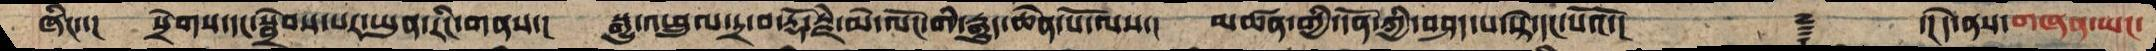ཞིང་་།   སྲེགས་དང་སྦྲེབས་པར་ཡུན་རིང་གནས་།  སྒྱུ་འཕྲུལ་དྲ་བ་རྡོ་རྗེ་མེ་ལོང་གི་རྒྱུད་ཆེན་པོ་ལས་།   མཚན་གྱི་དོན་ཀྱི་བཤད་པ་སྟེ་དང་པོའོ་།       ࿑    ་།དེ་ནས་གཞན་ཡང་
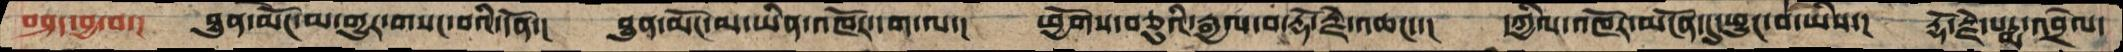བཤད་བྱ་བ་།  ཐུན་མོང་མ་གྱུར་གསང་བའི་དོན་།  ཐུན་མོང་མ་ཡིན་འཁོར་དག་ལ་།   ཕྱོགས་བཅུའི་རྒྱལ་བ་རྡོ་རྗེ་འཆང་་།   དཀྱིལ་འཁོར་མངོན་དུ་ཕྱུང་བ་ཡིས་།  རྡོ་རྗེ་པདྨ་འབྲེལ་
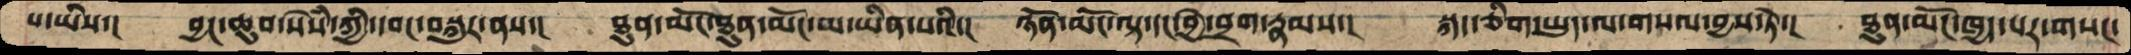པ་ཡིས་།  བྱང་ཆུབ་སེསཾ་ཀྱི་དབང་བསྐུར་ནས་།  ཐུན་མོང་ཐུན་མོང་མ་ཡིན་པའི་།  ཉོན་མོང་ལྟ་དང་བྱེ་བྲག་རྣམས་།   སྐད་ཅིག་ཡུད་ལ་གསལ་བྱས་ཏེ་།   ཐུན་མོང་ཁྱད་པར་གསང་
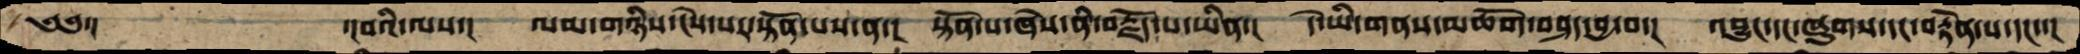༄༅་།      ་བའི་ལས་།  ལམ་གཉིས་ངེས་པར་སྟོན་པས་ན་།  སྟོན་པ་ཞེས་ནི་བརྗོད་པ་ཡིན་།  དེ་ཡི་གནས་མཆོག་བཤད་བྱ་བ་།  འབྱུང་དང་ཞུགས་དང་བརྟེན་པ་དང་་།
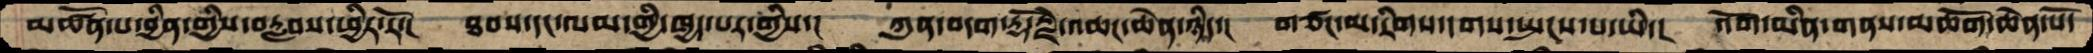མཚོན་པ་བྱིན་གྱིས་བརླབས་ཕྱིར་རོ་།  ཐབས་དང་ལམ་གྱི་ཁྱད་པར་གྱིས་།  ཀུན་བདག་རྡོ་རྗེ་འཆང་ཆེན་ཉིད་།  གཙང་མ་རིགས་དགས་སྤངས་པ་ཡི་།  འོག་མིན་གནས་མཆོག་ཆེན་པོ་
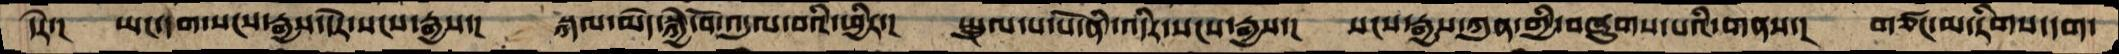དེར་།  ཡང་དག་སངས་རྒྱས་དེར་སངས་རྒྱས་།  སྐལ་མེད་སྐྱེ་བོ་འདུལ་བའི་ཕྱིར་།  སྤྲུལ་པ་པོ་ནི་འདིར་སངས་རྒྱས་།  སངས་རྒྱས་ཀུན་གྱི་བཞུགས་པའི་གནས་།  གཙང་མ་རིགས་དག་
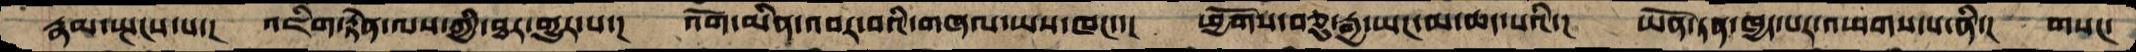རྣམ་སྤངས་པ་།  འཇིག་རྟེན་ལས་ཀྱི་ཐར་གྱུར་པ་།  འོག་མིན་འབར་བའི་གཞལ་ཡས་ཁང་་།  ཕྱོགས་བཅུ་རྒྱ་ཡང་མ་ཆད་པའི་།  ཡོན་ཏན་ཁྱད་པར་འཕགས་པ་ནི་།  གསང་
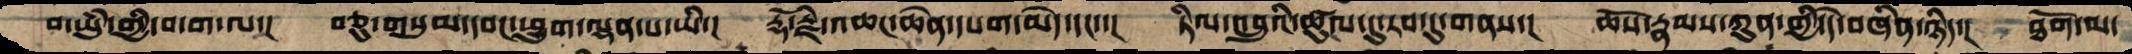བ་ཡུཾ་གྱི་བདག་ལ་།  བཅུ་གསུམ་དབང་ཕྱུག་ལྡན་པ་ཡི་།  རྡོ་རྗེ་འཆང་ཆེན་དཔག་མེད་དང་་།   ཏིལ་འབྲུའི་ཚུལ་དུ་རབ་དུ་གནས་།  ཆོས་རྣམས་ཀུན་གྱི་དེ་བཞིན་ཉིད་།  ཐོག་མ་
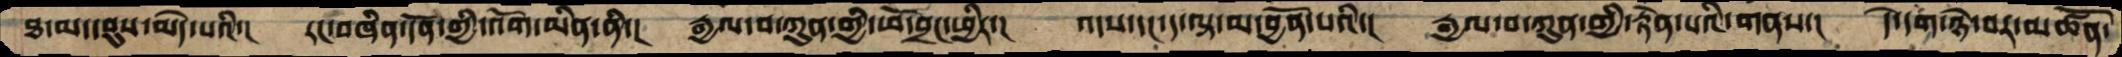ཐ་མ་དབུས་མེད་པའི་།  རང་བཞིན་དོན་གྱི་འོག་མིན་ནི་།  རྒྱལ་བ་ཀུན་གྱི་ཕོ་བྲང་ཕྱིར་།  འདས་དང་ད་ལྟ་མ་བྱོན་པའི་།  རྒྱལ་བ་ཀུན་གྱི་རྟེན་པའི་གནས་།  དེ་དག་ཉེ་བར་མཚོན་
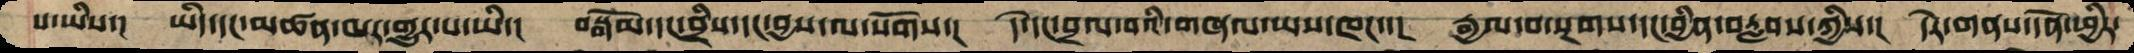པ་ཡིས་།  ཡིད་དང་མཚན་མར་གྱུར་པ་ཡི་།  བསྒོམ་དང་བྲིས་དང་བྱས་ལ་སོགས་།  དེ་དང་བྲལ་བའི་གཞལ་ཡས་ཁང་་།  རྒྱལ་བ་སྔགས་དང་བྱིན་བརླབས་ཀྱིས་།  དེར་གནས་དོན་ཕྱིར་
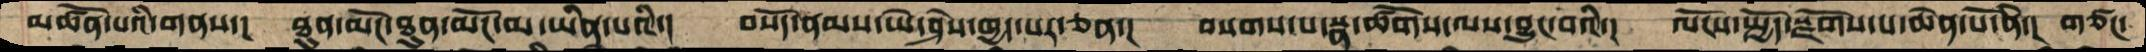མཚོན་པའི་གནས་།  ཐུན་མོང་ཐུན་མོང་མ་ཡིན་པའི་།  བསོད་ནམས་ཡེ་ཤེས་ཁྱད་པར་ཅན་།  བསགས་པ་སྣ་ཚོགས་ལས་བྱུང་བའི་།  ལོངས་སྤྱོད་སྫོགས་པ་ཆེན་པོ་ནི་།  གཙང་
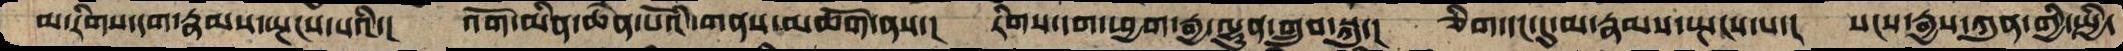མ་རིགས་དག་རྣམས་སྤངས་པའི་།  འོག་མིན་ཆེན་པོའི་གནས་མཆོག་ནས་།  རིགས་དག་ཕྱག་རྒྱ་ལྷུན་གྲུབ་སྐུ་།  ཅིག་དང་དུ་མ་རྣམས་སྤངས་པ་།  སངས་རྒྱས་ཀུན་གྱི་སྤྱི་
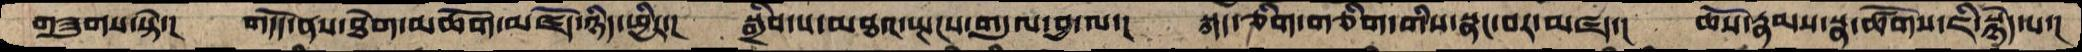གཟུགས་སྟེ་།  གདོད་ནས་ཐེག་མཆོག་མཛོད་ཉིད་ཕྱིར་།  སྒྲིབ་པ་མཐའ་སྤངས་གདུལ་བྱ་ལ་།  སྐད་ཅིག་གཅིག་གིས་སྣང་བར་མཛད་།   ཆོས་རྣམས་སྣ་ཚོགས་ཇི་སྙེད་པ་།
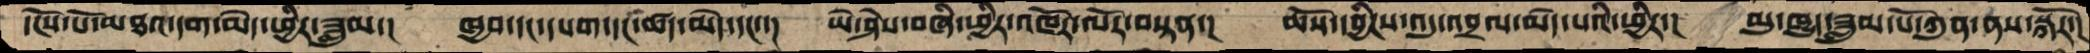དངོས་པོ་མཐའ་དག་མེད་ཕྱིར་ཟླུམ་།   ཁྱབ་དང་དཔག་དང་ཚད་མེད་དང་་།  ཡེ་ཤེས་བཞི་ཕྱིར་འཁོར་ལོར་བསྟན་།  ཆོས་དབྱིངས་འདུ་འབྲལ་མེད་པའི་ཕྱིར་།  མུ་ཁྱུད་ཟླུམ་པོ་ཀུན་ནས་སྐོར་།
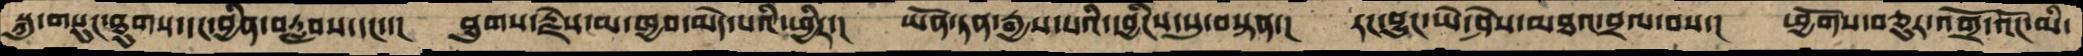སྐུ་གསུང་ཐུགས་དང་བྱིན་བརླབས་དང་་།  ཐུགས་རྗེས་མ་ཁྱབ་མེད་པའི་ཕྱིར་།   ཡོན་ཏན་རྒྱས་པའི་དབྱིངས་སུ་བསྟན་།  རང་བྱུང་ཡེ་ཤེས་མཐའ་བྲལ་བས་།  ཕྱོགས་བཅུར་འགྲོ་འོང་མི་
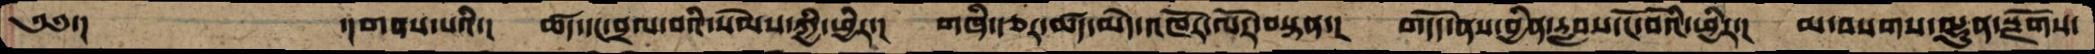༄༅་།          ་།གནས་པའི་།  ཚད་དང་བྲལ་བའི་སེམས་ཀྱི་ཕྱིར་།  གཞི་རྩར་ཚད་མེེད་འཁོར་ལོར་བསྟན་།  གདོད་ནས་བྱིན་རླབས་ངོ་བོའི་ཕྱིར་།  མ་བསགས་ལྷུན་སྫོགས་
